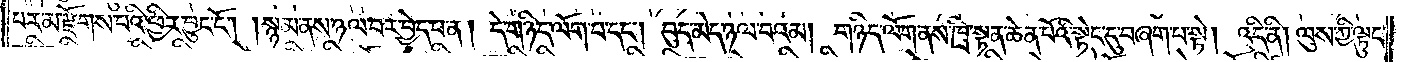པར་མ་རྫོགས་པའི་ཕྱིར་བྱུང་ངོ༌། །སྙམ་ནས་ཉལ་བར་བྱེད་པ་ན། དེ་གཉིད་ལོག་པ་དང༌། བུད་མེད་ཉལ་བའམ། གཉིད་ལོག་ནས་ཁྲི་སྟན་ཆེན་པོའི་སྟེང་དུ་བཞག་པ་སྟེ། འདི་ནི། ལུས་ཀྱི་ལྟུང་
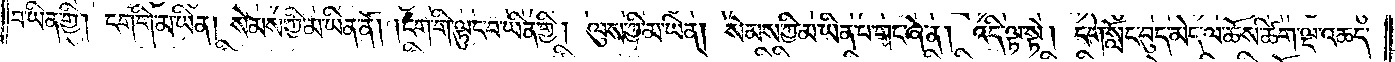བ་ཡིན་གྱི། ངག་གི་མ་ཡིན། སེམས་ཀྱི་མ་ཡིན་ནོ། །ངག་གི་ལྟུང་བ་ཡིན་གྱི། ལུས་ཀྱི་མ་ཡིན། སེམས་ཀྱི་མ་ཡིན་པ་གང་ཞེ་ན། འདི་ལྟ་སྟེ། དགེ་སློང་བུད་མེད་ལ་ཆོས་ཚིག་ལྔ་འཆད་
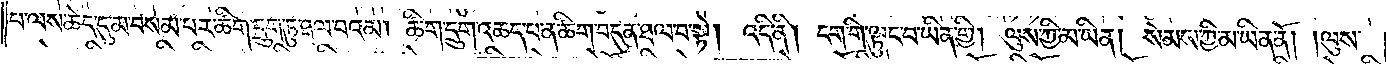པ་ལས་ཆེད་དུ་མ་བསམ་པར་ཚིག་དྲུག་ཏུ་ཐལ་བའམ། ཚིག་དྲུག་འཆད་པ་ན་ཚིག་བདུན་ཐལ་བ་སྟེ། འདི་ནི། ངག་གི་ལྟུང་བ་ཡིན་གྱི། ལུས་ཀྱི་མ་ཡིན། སེམས་ཀྱི་མ་ཡིན་ནོ། །ལུས་
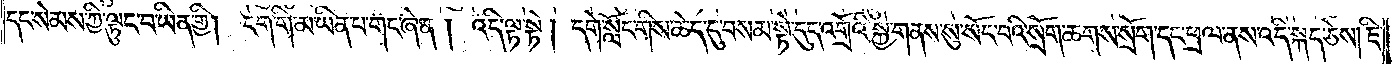དང་སེམས་ཀྱི་ལྟུང་བ་ཡིན་གྱི། ངག་གི་མ་ཡིན་པ་གང་ཞེ་ན། འདི་ལྟ་སྟེ། དགེ་སློང་གིས་ཆེད་དུ་བསམ་སྟེ་དུད་འགྲོའི་སྐྱེ་གནས་སུ་སོང་བའི་སྲོག་ཆགས་སྲོག་དང་ཕྲལ་ནས་འདི་སྐད་ཅེས། ཇི་
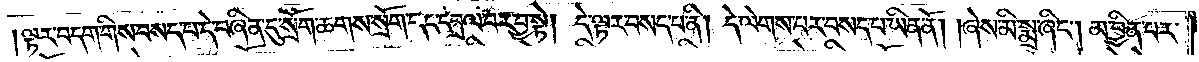ལྟར་བདག་གིས་བསད་པ་དེ་བཞིན་དུ་སྲོག་ཆགས་སྲོག་དང་དབྲལ་བར་བྱ་སྟེ། དེ་ལྟར་བསད་པ་ནི། དེ་ལེགས་པར་བསད་པ་ཡིན་ནོ། །ཞེས་མི་སྨྲ་ཞིང༌། མ་བྱིན་པར་
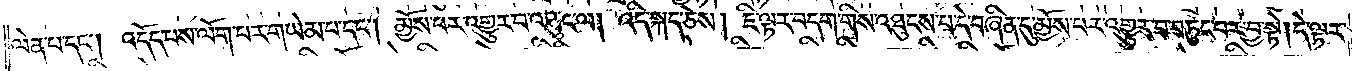ལེན་པ་དང༌། འདོད་པས་ལོག་པར་གཡེམ་པ་དང༌། མྱོས་པར་འགྱུར་བ་འཐུང་ལ། འདི་སྐད་ཅེས། ཇི་ལྟར་བདག་གིས་འཐུངས་པ་དེ་བཞིན་དུ་མྱོས་པར་འགྱུར་བ་བཏུང་བར་བྱ་སྟེ། དེ་ལྟར་
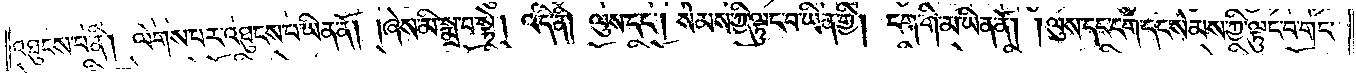འཐུངས་པ་ནི། ལེགས་པར་འཐུངས་པ་ཡིན་ནོ། །ཞེས་མི་སྨྲ་བ་སྟེ། འདི་ནི། ལུས་དང༌། སེམས་ཀྱི་ལྟུང་བ་ཡིན་གྱི། ངག་གི་མ་ཡིན་ནོ། །ལུས་དང་ངག་དང་སེམས་ཀྱི་ལྟུང་བ་གང་
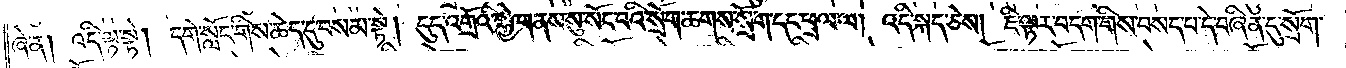ཞེ་ན། འདི་ལྟ་སྟེ། དགེ་སློང་གིས་ཆེད་དུ་བསམ་སྟེ། དུད་འགྲོའི་སྐྱེ་གནས་སུ་སོང་བའི་སྲོག་ཆགས་སྲོག་དང་ཕྲལ་ལ། འདི་སྐད་ཅེས། ཇི་ལྟར་བདག་གིས་བསད་པ་དེ་བཞིན་དུ་སྲོག་
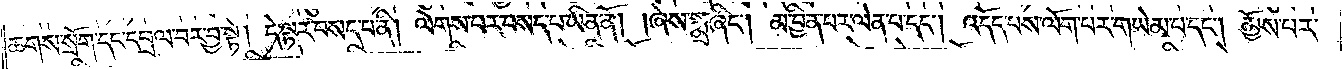ཆགས་སྲོག་དང་དབྲལ་བར་བྱ་སྟེ། དེ་ལྟར་བསད་པ་ནི། ལེགས་པར་བསད་པ་ཡིན་ནོ། །ཞེས་སྨྲ་ཞིང༌། མ་བྱིན་པར་ལེན་པ་དང༌། འདོད་པས་ལོག་པར་གཡེམ་པ་དང༌། མྱོས་པར་
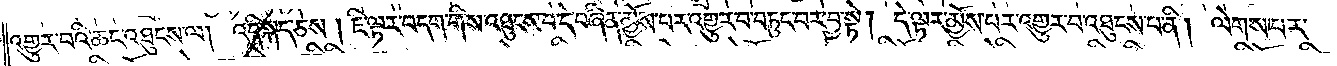འགྱུར་བའི་ཆང་འཐུངས་ལ། འདི་སྐད་ཅེས། ཇི་ལྟར་བདག་གིས་འཐུངས་པ་དེ་བཞིན་མྱོས་པར་འགྱུར་བ་བཏུང་བར་བྱ་སྟེ། དེ་ལྟར་མྱོས་པར་འགྱུར་བ་འཐུངས་པ་ནི། ལེགས་པར་
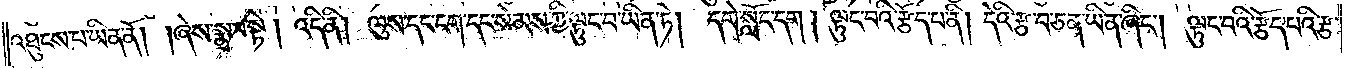འཐུངས་པ་ཡིན་ནོ། །ཞེས་སྨྲ་བ་སྟེ། འདི་ནི། ལུས་དང་ངག་དང་སེམས་ཀྱི་ལྟུང་བ་ཡིན་ཏེ། དགེ་སློང་དག །ལྟུང་བའི་རྩོད་པ་ནི། དེའི་རྩ་བ་ཅན་ཡིན་ཞིང༌། ལྟུང་བའི་རྩོད་པའི་རྩ་
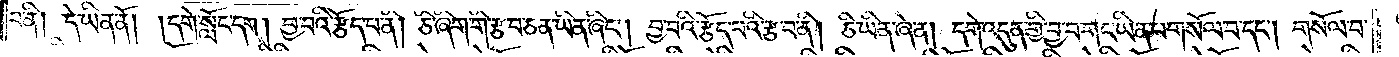བ་ནི། དེ་ཡིན་ནོ། །དགེ་སློང་དག །བྱ་བའི་རྩོད་པ་ནི། ཅི་ཞིག་གི་རྩ་བ་ཅན་ཡིན་ཞིང༌། བྱ་བའི་རྩོད་པའི་རྩ་བ་ནི། ཅི་ཡིན་ཞེ་ན། དགེ་འདུན་གྱི་བྱ་བ་གང་ཡིན་པ་གསོལ་བ་དང༌། གསོལ་བ་
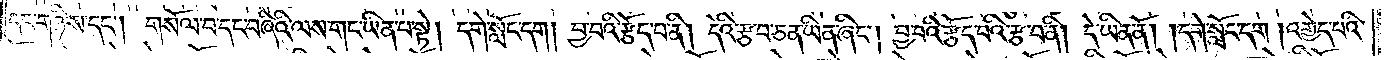དང་གཉིས་དང༌། གསོལ་བ་དང་བཞིའི་ལས་གང་ཡིན་པ་སྟེ། དགེ་སློང་དག །བྱ་བའི་རྩོད་པ་ནི། དེའི་རྩ་བ་ཅན་ཡིན་ཞིང༌། བྱ་བའི་རྩོད་པའི་རྩ་བ་ནི། དེ་ཡིན་ནོ། །དགེ་སློང་དག །འགྱེད་པའི་
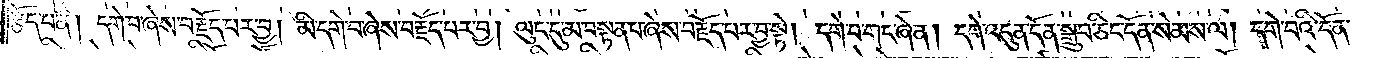རྩོད་པ་ནི། དགེ་བ་ཞེས་བརྗོད་པར་བྱ། མི་དགེ་བ་ཞེས་བརྗོད་པར་བྱ། ལུང་དུ་མ་བསྟན་པ་ཞེས་བརྗོད་པར་བྱ་སྟེ། དགེ་བ་གང་ཞེ་ན། དགེ་འདུན་དོན་སྒྲུབ་ཅིང་དོན་སེམས་ལ། དགེ་བའི་དོན་
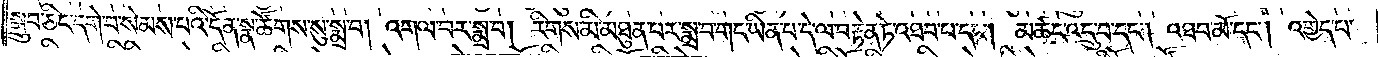སྒྲུབ་ཅིང་དགེ་བ་སེམས་པའི་དོན་སྣ་ཚོགས་སུ་སྨྲ་བ། འགལ་བར་སྨྲ་བ། རིགས་མི་མཐུན་པར་སྨྲ་བ་གང་ཡིན་པ་དེ་ལ་བརྟེན་ཏེ་འཐབ་པ་དང༌། མཚང་འདྲུ་བ་དང༌། འཐབ་མོ་དང༌། འགྱེད་པ་
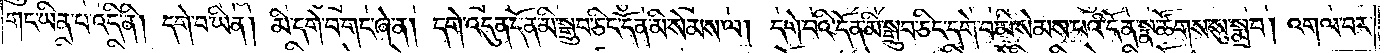གང་ཡིན་པ་འདི་ནི། དགེ་བ་ཡིན། མི་དགེ་བ་གང་ཞེ་ན། དགེ་འདུན་དོན་མི་སྒྲུབ་ཅིང་དོན་མི་སེམས་ལ། དགེ་བའི་དོན་མི་སྒྲུབ་ཅིང་དགེ་བ་མི་སེམས་པའི་དོན་སྣ་ཚོགས་སུ་སྨྲ་བ། འགལ་བར་
